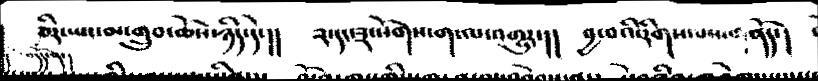ཅིར་ཡང་མ་གྲུབ་ཆོས་ཉིད་དེ་།།     ༢་དང་༣་སོགས་ག་ལ་འགྱུར་།།    བྱ་བའི་རིགས་པས་གནོད་།
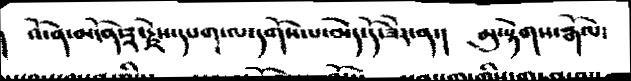།    འོ་ན་མངོན་༣་རྗེས་དཔག་ལ་དགོས་པ་མེད་དོ་ཟེར་ན་།   མུ་སྟེགས་རྒོལ་
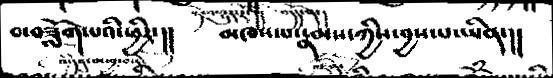བ་བཟློག་པའི་ཕྱིར་།།    མཁས་པ་རྣམས་ཀྱིས་བྱས་པ་ཡིན་།།
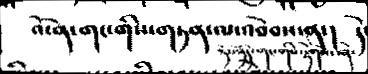འོ་ན་གང་གིས་གཏན་ལ་འབེབས་ན་།    དེ་
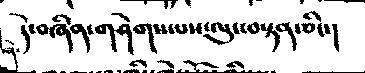དེ་བཞིན་གཤེགས་པས་ལུང་བསྟན་ཅིང་།
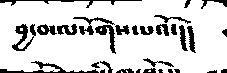བྱ་བ་ལསོགས་པའོ་།།
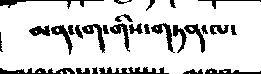མན་ངག་གིས་གཏན་ལ་
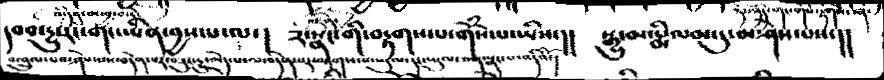དབབ་དྱུ་རང་གང་ཡིན་བྱས་པ་ལ་།   ༢་སྣང་གི་བརྟགས་པ་གོཾས་པ་ཡིས་།།   སྒྱུ་མ་རྨི་ལམ་དུ་མ་ཤེས་པས་།།
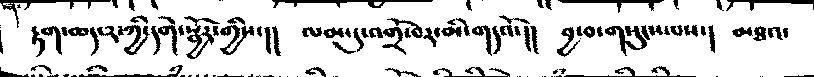རྟག་ཆད་༢་ཀྱི་དགེ་སྦྱོར་གྱིས་།།    ལམ་དུ་འགྲོ་བར་མི་གདའ་།།   བྱ་བ་གསུངས་པས་།   མཐའ་
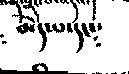མེད་པ་དང༴་
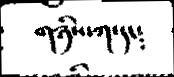གཉིས་ཀ་དང༴
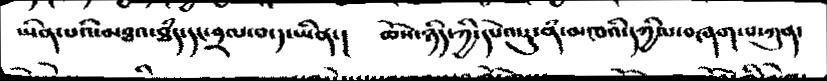ཡིན་པའི་མཐའ་ཐཾད་དང་བྲལ་བ་༡་ཡིན་།     ཆོས་ཉིད་ཀྱི་དཔའེ་རུ་ནཾ་མཁའི་དཀྱིལ་བཞག་པ་ཀུན་
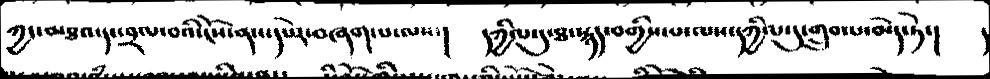ཀྱང་མཐའ་དང་བྲལ་བའི་ངོས་ནས་དཔེར་བཞག་པ་ལས་།   དཀྱིལ་དུ་ཐ་སྙད་བགྱིས་པ་ལས་དཀྱིལ་དུ་གྲུབ་པ་མེད་ཏེ་།  །
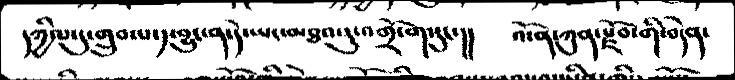དཀྱིལ་དུ་གྲུབ་པ་༡་བྱུང་ན་དེ་ཡང་མཐའ་རུ་འགྲོ་ག་དུང་།།   འོ་ན་ཀུན་སྫོབ་གི་བདེན་
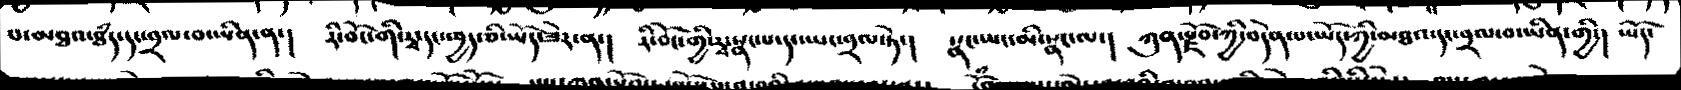པ་མཐའ་ཐཾད་དང་བྲལ་བ་ཡིན་ན་།   རི་བོང་གི་རྭ་དང་ཁྱད་ཅི་ཡོད་ཟེར་ན་།   རི་བོང་གྱི་རྭ་སྣང་པ་དང་ཡང་བྲལ་ཏེ་།  སྣང་ཡང་མི་སྣང་ལ་།  ཀུན་སྫོབ་ཀྱི་བདེན་པ་ཡོད་ཀྱི་མཐའ་དང་བྲལ་བ་ཡིན་གྱི་།  ཡོད་
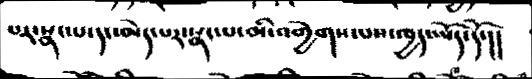པར་སྣང་པ་དང་མེད་པར་སྣང་པ་མི་འགྱེགས་པས་ཁྱད་ཡོད་དོ་།།
